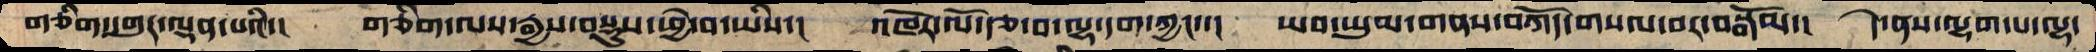གཅིག་དགུར་ལྡན་པའི་།   གཅིག་ལས་རྒྱས་བསྡུས་ཕྱེ་བ་ཡིས་།  འཁོར་ལོ་རྩ་བ་ལྷ་དག་ཀྱང་་།  ཡབ་ཡུམ་གནས་བཀོད་གསལ་བར་བསྒོམ་།  དེ་ནས་ལྷག་པ་ལྷ་
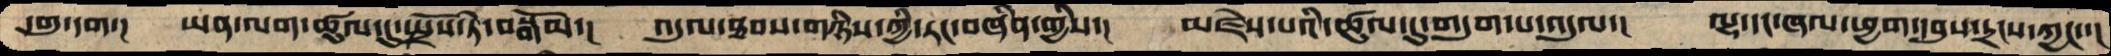དགུ་དག་།  ཡན་ལག་ཚུལ་དུ་སྤྲོས་ཏེ་བསྒོམ་།  འདུལ་ཐབས་གཉིས་ཀྱི་རང་བཞིན་གྱིས་།  མཛེས་པའི་ཚུལ་དུ་གདུག་པ་འདུལ་།  ལྷ་དང་ཞལ་ཕྱག་དབུས་དྲངས་ཀྱང་་།
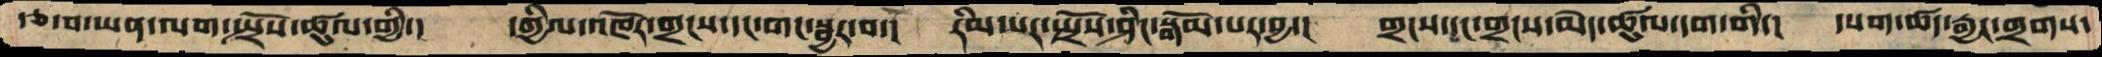རྩ་བ་ཡན་ལག་སྤྲོས་ཚུལ་གྱི་།  དཀྱིལ་འཁོར་གྲངས་དང་གང་སྦྱར་བ་།  རིམ་པར་སྤྲོས་ཤིང་སྒོམ་པར་བྱ་།  གྲངས་དང་གྲངས་མེད་ཚུལ་དག་གི་།  དཔག་ཚད་རྒྱང་གྲགས་
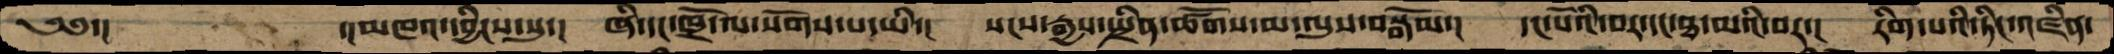༄༅་།     ་།མཁའ་དབྱིངས་སུ་།   ཞི་དང་ཁྲོ་ལ་སོགས་པ་ཡི་།  སངས་རྒྱས་སྤྲིན་ཚོགས་མ་ལུས་བསྒོམ་།  དང་པོའི་བར་དང་ཐ་མའི་བར་།  རིག་པའི་ཏིང་འཛིན་
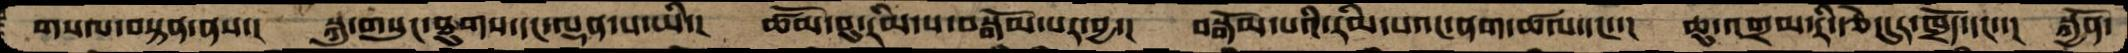གསལ་བསྟན་ནས་།  སྐུ་གསུང་ཐུགས་དང་ལྡན་པ་ཡི་།   ཚོམ་བུ་རིམ་པ་བསྒོམ་པར་བྱ་།   བསྒོམ་པའི་རིམ་པའང་ནག་ཚལ་དང་་།  ཆུ་འགྲམ་རི་རྩེ་དུར་ཁྲོད་དང་་།  སྐྱོན་
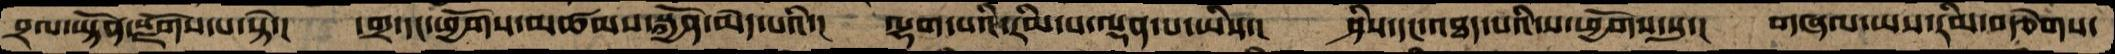བྲལ་ཡྟོན་སྫོགས་པ་སྟེ་།  དགྲ་དང་ཕྱོགས་མཚམས་སྐྱོན་མེད་པའི་།  ལྷག་པའི་རིམ་པ་ལྡན་པ་ཡིས་།  ཤིས་དང་འཐད་པའི་ས་ཕྱོགས་སུ་།  གཞལ་ཡས་རིམ་བརྩེགས་
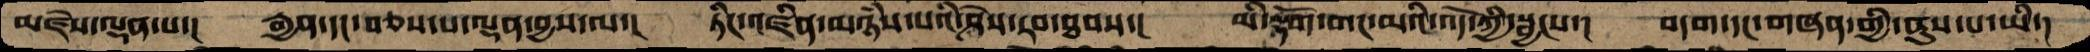མཛེས་ལྡན་པ་།  རྒྱན་དང་བཅས་པ་ལྡན་བྱས་ལ་།  ཏིང་འཛིན་མཉཾས་པའི་ཤེས་རབ་ཐབས་།  མི་རྟོག་གང་མའི་འོད་ཀྱི་སྦྱངས་།  བདག་དང་གཞན་གྱི་ནུས་པ་ཡི་།
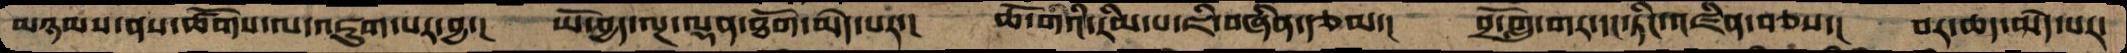མཉམས་ནས་ཚོགས་ལ་འཇུག་པར་བྱ་།  ཡོ་བྱད་ལྔ་ལྡན་ཐོག་མེད་པར་།  ཆོ་གའི་རིམ་པ་ཇི་བཞིན་རྩམ་།  བྲོ་གླུ་གར་དང་ཏིང་འཛིན་བཅས་།  བར་ཆད་མེད་པར་
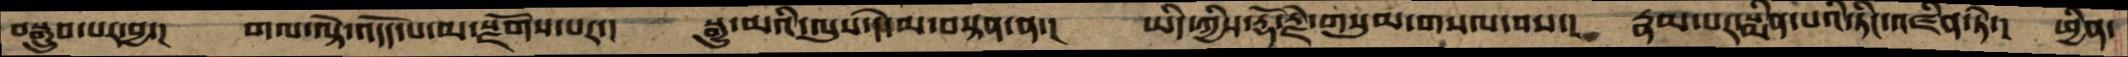བསྒྲུབ་པར་བྱ་།  གལ་ལྟེ་འདོད་པ་མ་སྫོགས་པར་།  སྒྱུ་མའི་ལུས་དེ་མ་བསྟན་ན་།  ཡིད་ཀྱིས་རྡོ་རྗེ་གསུམ་གསལ་བས་།  རྣམ་པར་སྨིན་པའི་ཏིང་འཛིན་ཏེ་།  ཕྱིན་
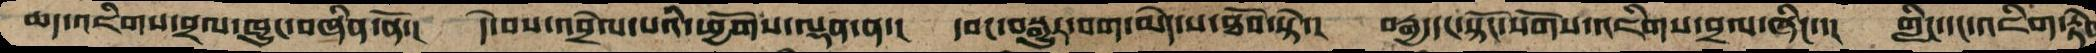ཆད་འཇིགས་བྲལ་ཁྱུང་བཞིན་ནོ་།  དེ་བས་འབྲེལ་པའི་ཕྱོགས་ལྡན་ན་།  དབང་བསྒྱུར་བག་མེད་ས་ཐོབ་སྟེ་།  བརྒྱ་དང་སྟོང་སོགས་འཇིགས་བྲལ་ཞིང་་།  གླིང་དང་འཇིག་རྟེན
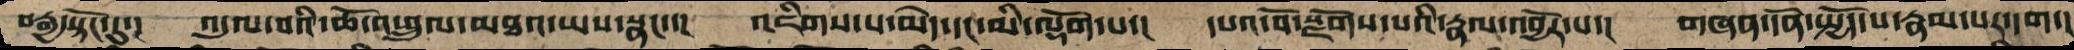བརྒྱ་སྟོང་དུ་།  འདུལ་བའི་ཆོ་འཕྲུལ་མཐའ་ཡས་སྣང་་།  འཇིགས་པ་མེད་དང་མི་ལྡོག་པ་།   དཔའ་བོ་སྫོགས་པའི་རྣལ་འབྱོར་པ་།  གཞན་དོན་སྤྱོད་པ་རྣམ་པར་དག་།
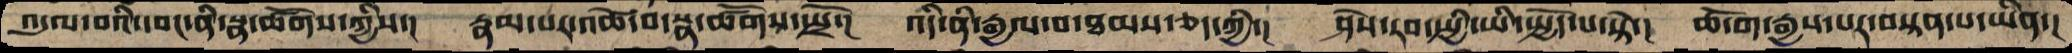འདུལ་བའི་དབང་ནི་སྣ་ཚོགས་ཀྱིས་།  རྣམ་པར་འཚེ་བ་སྣ་ཚོགས་སྤྲོ་།  འདི་ནི་རྒྱལ་བ་ཐམས་ཅད་ཀྱི་།  ཤེས་རབ་སྤྱི་ཡི་སྤྱོད་པ་སྟེ་།  ཆོ་ག་རྒྱས་པར་བསྟན་པ་ཡིན་།
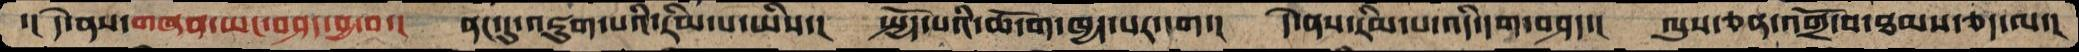་།  དེ་ནས་གཞན་ཡང་བཤད་བྱ་བ་།  ནང་དུ་འཇུག་པའི་རིམ་པ་ཡིས་།  སྤྱོད་པའི་ཆོ་ག་ཁྱད་པར་དག་།  དེ་ནས་རིམ་པ་འདི་དག་བཤད་།  ལུས་ཅན་འགྲོ་བ་ཐམས་ཅད་ལ་།
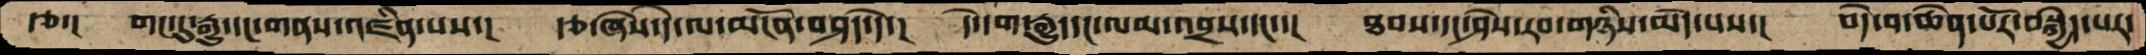རྩ་།   གང་དུ་རྒྱུ་དང་གནས་འཛིན་པས་།  རྩ་ཞེས་དེ་ལ་མངོན་བཤད་དེ་།  དེ་དག་རྒྱུ་དང་ལམ་འབྲས་དང་་།  ཐབས་དང་ཤེས་རབ་གཉིས་མེད་པས་།  བདེ་བ་ཆེན་པོར་བསྐྱེད་པར་
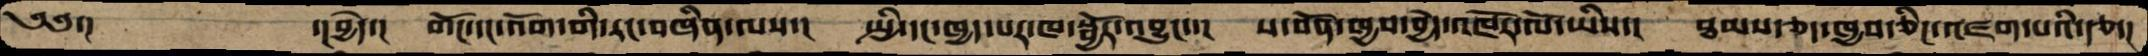༄༅་།         ་།བྱེད་།  གོང་དང་འོག་གི་རང་བཞིན་ལས་།  སྤྱི་དང་ཁྱད་པར་ཁ་སྦྱོར་འབྱུང་་།  ས་བོན་ཁྱབ་བྱེད་འཁོར་ལོ་ཡིས་།  ཐམས་ཅད་ཁྱབ་ཅིང་འཛག་པའི་རྩ་།
